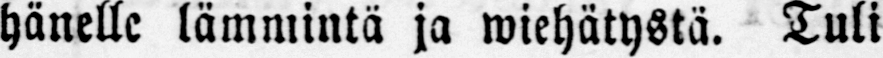hänelle lämmintä ja wiehätystä. Tuli
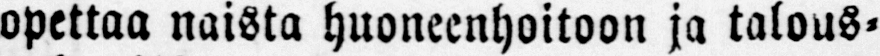opettaa naista huoneenhoitoon ja talous-
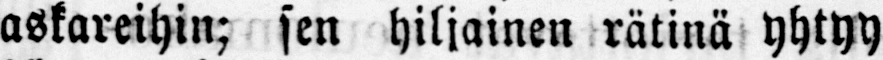askareihin; sen hiljainen rätinä yhtyy
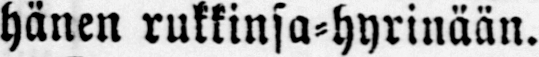hänen rukkinsa-hyrinään.
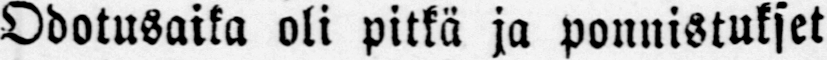Odotusaika oli pitkä ja ponnistukset
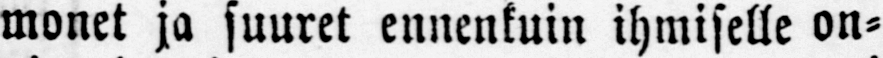monet ja suuret ennenkuin ihmiselle on-
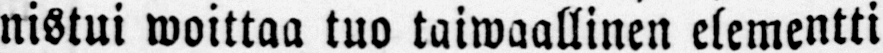nistui woittaa tuo taiwaallinen elementti
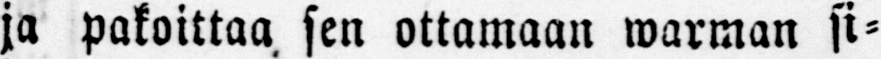ja pakoittaa sen ottamaan warman si-
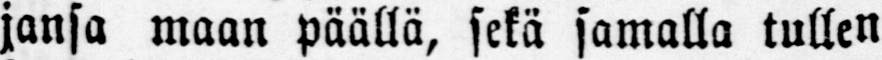jansa maan päällä, sekä samalla tullen
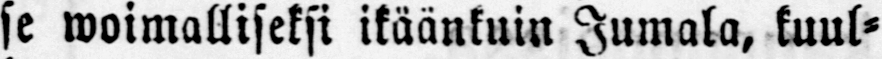se woimalliseksi ikäänkuin Jumala, kuul-
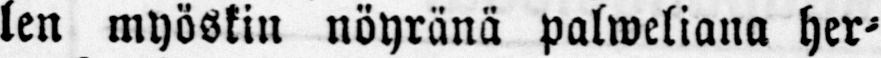len myöskin nöyränä palweliana her-
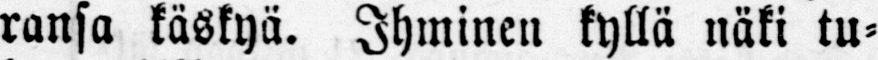ransa käskyä. Ihminen kyllä näki tu-
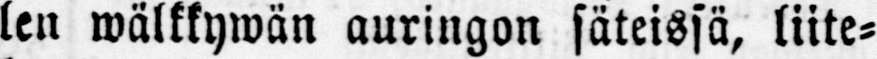len wälkkywän auringon säteissä, liite-
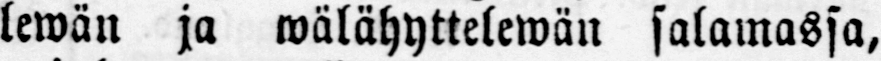lewän ja wälähyttelewän salamassa,
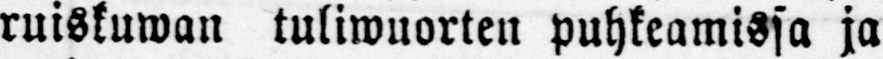ruiskuwan tuliwuorten puhkeamissa ja
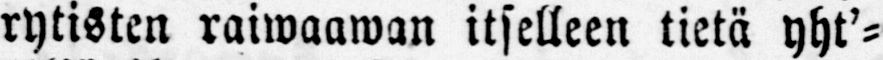rytisten raiwaawan itselleen tietä yht-
